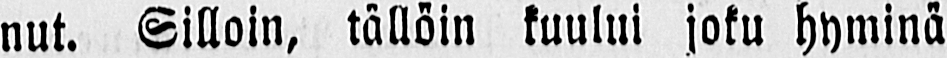nut. Silloin, tällöin kuului joku hyminä
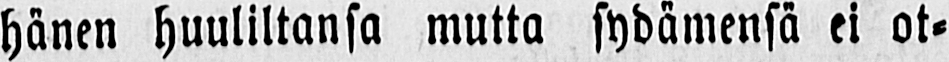hänen huuliltansa mutta sydämensä ei ot-
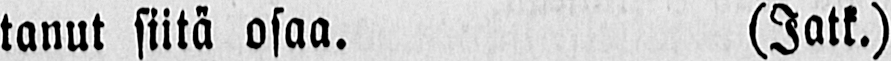tanut siitä osaa. (Jatk.)
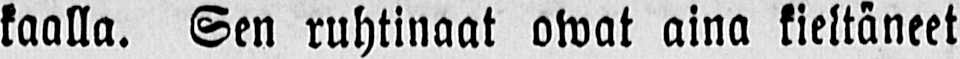taalla. Sen ruhtinaat oivat aina kieltäneet
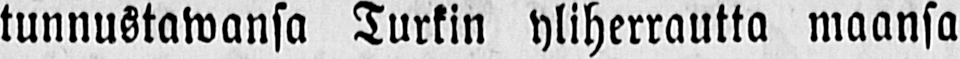tunnustamansa Turkin yliherruutta maansa
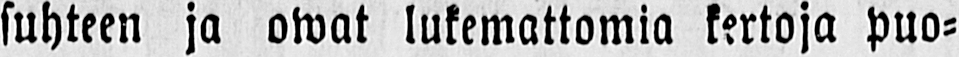suhteen ja oivat lukemattomia kertoja puo-
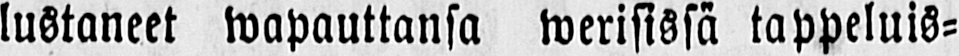lustaneet wapauttansa werisissä tappeluis-
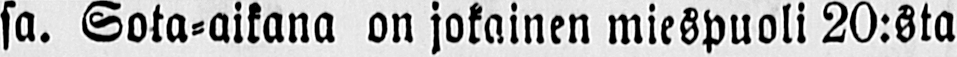sa. Sota-aikana on jokainen miespuoli 20:sta
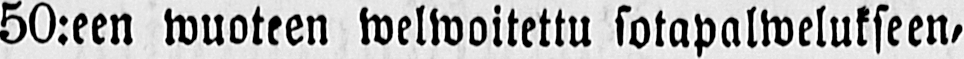50:een wuoteen welwoitettu sotapalwelukseen,
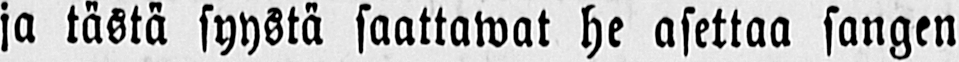ja tästä syystä saattawat he asettaa sangen
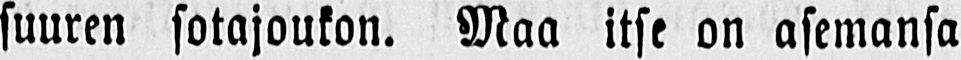suuren sotajoukon. Maa itse on asemansa
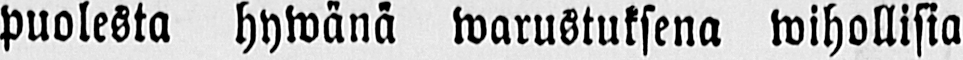puolesta hywänä warustuksena wihollisia
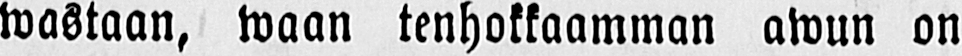wastaan, Maan tehokkaamman awun on
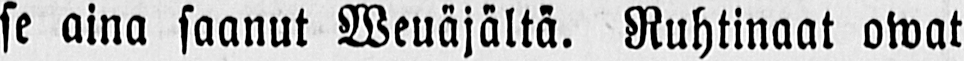se aina saanut wenäjältä. Ruhtinaat owat
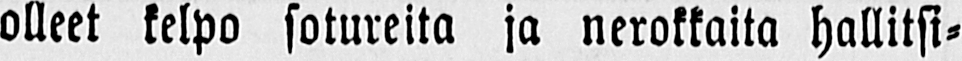olleet kelpo sotureita ja nerokkaita hallitsi-
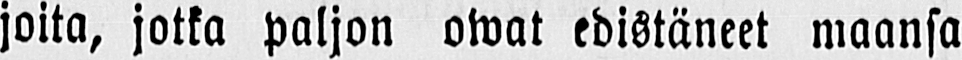joita, jotka paljon owat edistäneet maansa
